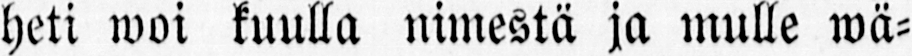heti woi kuulla nimestä ja mulle wä-
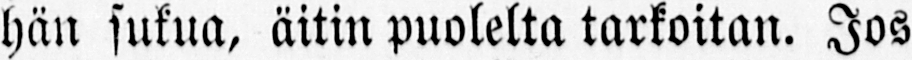hän sukua, äitin puolelta tarkoitan. Jos
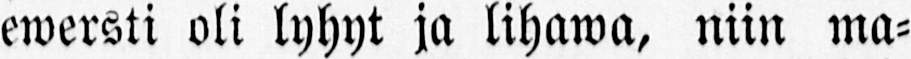ewersti oli lyhyt ja lihawa, niin ma-
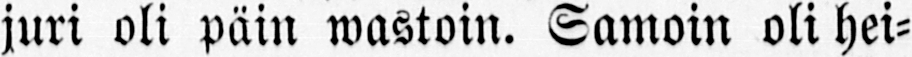juri oli päin wastoin. Samoin oli hei-
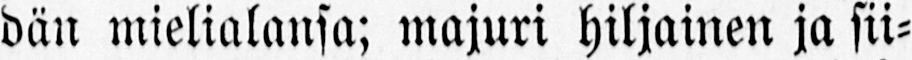dän mielialansa; majuri hiljainen ja sii-
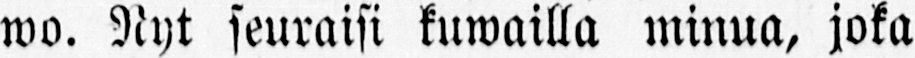wo. Nyt seuraisi kuwailla minua, joka
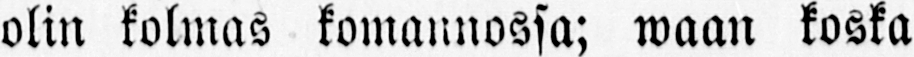olin kolmas komannossa; waan koska
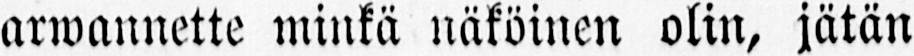arwannette minkä näköinen olin, jätän
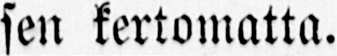sen kertomatta.
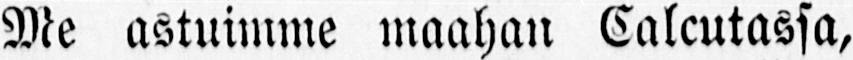Me astuimme maahan Calcutassa,
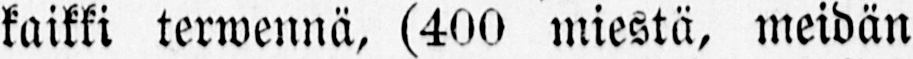kaikki terwennä, (400 miestä, meidän
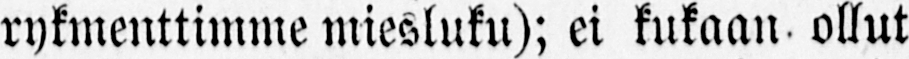rykmenttimme miesluku); ei kukaan ollut
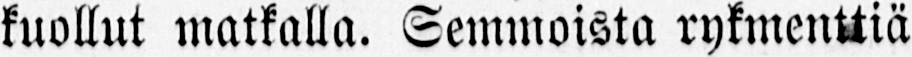kuollut matkalla. Semmoista rykmenttiä
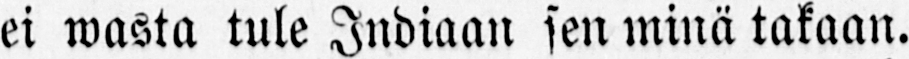ei wasta tule Indiaan sen minä takaan.
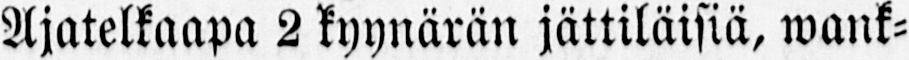Ajatelkaapa 2 kyynärän jättiläisiä, wank-
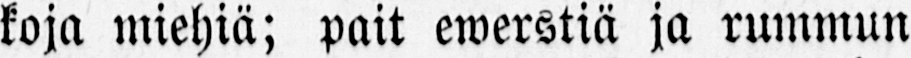koja miehiä; pait ewerstiä ja rummun
